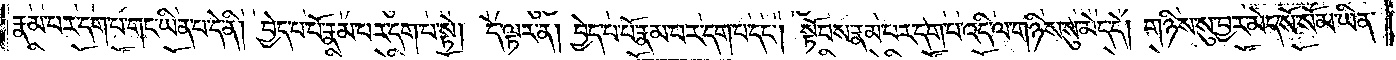རྣམ་པར་དག་པ་གང་ཡིན་པ་དེ་ནི། བྱེད་པ་པོ་རྣམ་པར་དག་པ་སྟེ། དེ་ལྟར་ན། བྱེད་པ་པོ་རྣམ་པར་དག་པ་དང༌། སྟོབས་རྣམ་པར་དག་པ་འདི་ལ་གཉིས་སུ་མེད་དེ། གཉིས་སུ་བྱར་མེད་སོ་སོ་མ་ཡིན་
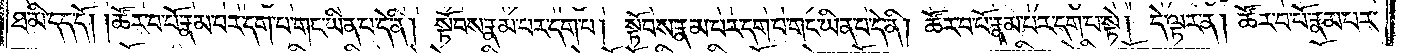ཐ་མི་དད་དོ། །ཚོར་བ་པོ་རྣམ་པར་དག་པ་གང་ཡིན་པ་དེ་ནི། སྟོབས་རྣམ་པར་དག་པ། སྟོབས་རྣམ་པར་དག་པ་གང་ཡིན་པ་དེ་ནི། ཚོར་བ་པོ་རྣམ་པར་དག་པ་སྟེ། དེ་ལྟར་ན། ཚོར་བ་པོ་རྣམ་པར་
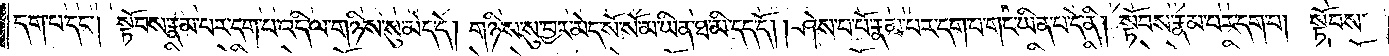དག་པ་དང༌། སྟོབས་རྣམ་པར་དག་པ་འདི་ལ་གཉིས་སུ་མེད་དེ། གཉིས་སུ་བྱར་མེད་སོ་སོ་མ་ཡིན་ཐ་མི་དད་དོ། །ཤེས་པ་པོ་རྣམ་པར་དག་པ་གང་ཡིན་པ་དེ་ནི། སྟོབས་རྣམ་པར་དག་པ། སྟོབས་
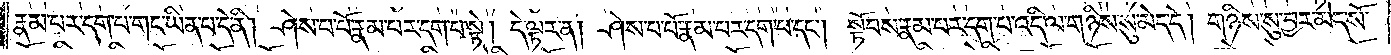རྣམ་པར་དག་པ་གང་ཡིན་པ་དེ་ནི། ཤེས་པ་པོ་རྣམ་པར་དག་པ་སྟེ། དེ་ལྟར་ན། ཤེས་པ་པོ་རྣམ་པར་དག་པ་དང༌། སྟོབས་རྣམ་པར་དག་པ་འདི་ལ་གཉིས་སུ་མེད་དེ། གཉིས་སུ་བྱར་མེད་སོ་
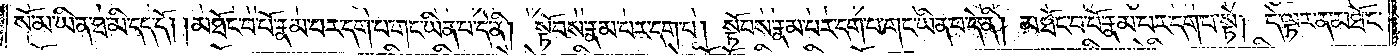སོ་མ་ཡིན་ཐ་མི་དད་དོ། །མཐོང་བ་པོ་རྣམ་པར་དག་པ་གང་ཡིན་པ་དེ་ནི། སྟོབས་རྣམ་པར་དག་པ། སྟོབས་རྣམ་པར་དག་པ་གང་ཡིན་པ་དེ་ནི། མཐོང་བ་པོ་རྣམ་པར་དག་པ་སྟེ། དེ་ལྟར་ན། མཐོང་
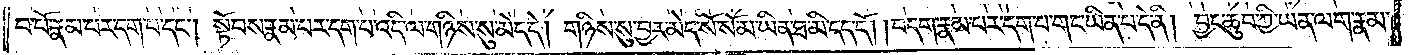བ་པོ་རྣམ་པར་དག་པ་དང༌། སྟོབས་རྣམ་པར་དག་པ་འདི་ལ་གཉིས་སུ་མེད་དེ། གཉིས་སུ་བྱར་མེད་སོ་སོ་མ་ཡིན་ཐ་མི་དད་དོ། །བདག་རྣམ་པར་དག་པ་གང་ཡིན་པ་དེ་ནི། བྱང་ཆུབ་ཀྱི་ཡན་ལག་རྣམ་
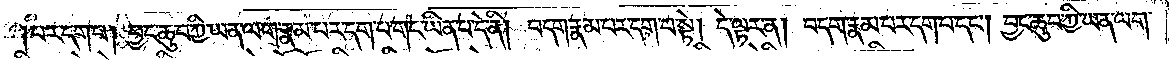པར་དག་པ། བྱང་ཆུབ་ཀྱི་ཡན་ལག་རྣམ་པར་དག་པ་གང་ཡིན་པ་དེ་ནི། བདག་རྣམ་པར་དག་པ་སྟེ། དེ་ལྟར་ན། བདག་རྣམ་པར་དག་པ་དང༌། བྱང་ཆུབ་ཀྱི་ཡན་ལག་
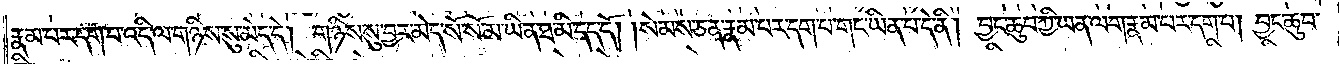རྣམ་པར་དག་པ་འདི་ལ་གཉིས་སུ་མེད་དེ། གཉིས་སུ་བྱར་མེད་སོ་སོ་མ་ཡིན་ཐ་མི་དད་དོ། །སེམས་ཅན་རྣམ་པར་དག་པ་གང་ཡིན་པ་དེ་ནི། བྱང་ཆུབ་ཀྱི་ཡན་ལག་རྣམ་པར་དག་པ། བྱང་ཆུབ་
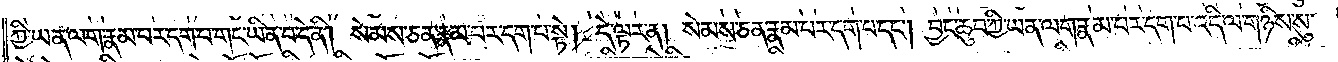ཀྱི་ཡན་ལག་རྣམ་པར་དག་པ་གང་ཡིན་པ་དེ་ནི། སེམས་ཅན་རྣམ་པར་དག་པ་སྟེ། དེ་ལྟར་ན། སེམས་ཅན་རྣམ་པར་དག་པ་དང༌། བྱང་ཆུབ་ཀྱི་ཡན་ལག་རྣམ་པར་དག་པ་འདི་ལ་གཉིས་སུ་
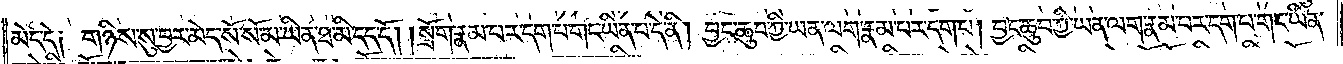མེད་དེ། གཉིས་སུ་བྱར་མེད་སོ་སོ་མ་ཡིན་ཐ་མི་དད་དོ། །སྲོག་རྣམ་པར་དག་པ་གང་ཡིན་པ་དེ་ནི། བྱང་ཆུབ་ཀྱི་ཡན་ལག་རྣམ་པར་དག་པ། བྱང་ཆུབ་ཀྱི་ཡན་ལག་རྣམ་པར་དག་པ་གང་ཡིན་
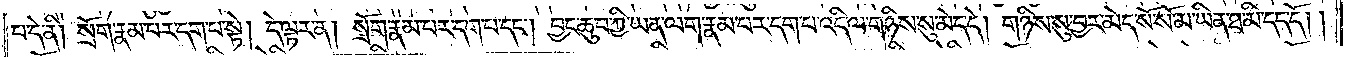པ་དེ་ནི། སྲོག་རྣམ་པར་དག་པ་སྟེ། དེ་ལྟར་ན། སྲོག་རྣམ་པར་དག་པ་དང༌། བྱང་ཆུབ་ཀྱི་ཡན་ལག་རྣམ་པར་དག་པ་འདི་ལ་གཉིས་སུ་མེད་དེ། གཉིས་སུ་བྱར་མེད་སོ་སོ་མ་ཡིན་ཐ་མི་དད་དོ། །
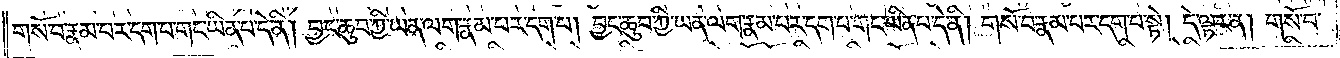གསོ་བ་རྣམ་པར་དག་པ་གང་ཡིན་པ་དེ་ནི། བྱང་ཆུབ་ཀྱི་ཡན་ལག་རྣམ་པར་དག་པ། བྱང་ཆུབ་ཀྱི་ཡན་ལག་རྣམ་པར་དག་པ་གང་ཡིན་པ་དེ་ནི། གསོ་བ་རྣམ་པར་དག་པ་སྟེ། དེ་ལྟར་ན། གསོ་བ་
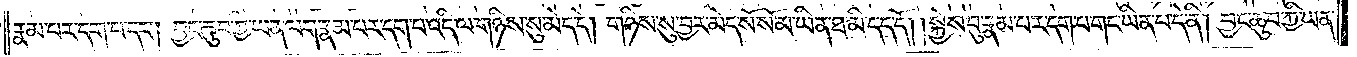རྣམ་པར་དག་པ་དང༌། བྱང་ཆུབ་ཀྱི་ཡན་ལག་རྣམ་པར་དག་པ་འདི་ལ་གཉིས་སུ་མེད་དེ། གཉིས་སུ་བྱར་མེད་སོ་སོ་མ་ཡིན་ཐ་མི་དད་དོ། །སྐྱེས་བུ་རྣམ་པར་དག་པ་གང་ཡིན་པ་དེ་ནི། བྱང་ཆུབ་ཀྱི་ཡན་
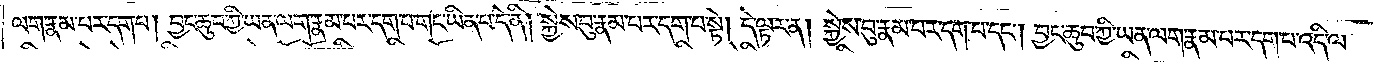ལག་རྣམ་པར་དག་པ། བྱང་ཆུབ་ཀྱི་ཡན་ལག་རྣམ་པར་དག་པ་གང་ཡིན་པ་དེ་ནི། སྐྱེས་བུ་རྣམ་པར་དག་པ་སྟེ། དེ་ལྟར་ན། སྐྱེས་བུ་རྣམ་པར་དག་པ་དང༌། བྱང་ཆུབ་ཀྱི་ཡན་ལག་རྣམ་པར་དག་པ་འདི་ལ་
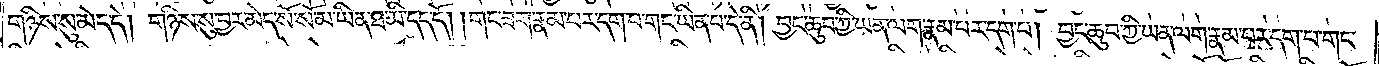གཉིས་སུ་མེད་དེ། གཉིས་སུ་བྱར་མེད་སོ་སོ་མ་ཡིན་ཐ་མི་དད་དོ། །གང་ཟག་རྣམ་པར་དག་པ་གང་ཡིན་པ་དེ་ནི། བྱང་ཆུབ་ཀྱི་ཡན་ལག་རྣམ་པར་དག་པ། བྱང་ཆུབ་ཀྱི་ཡན་ལག་རྣམ་པར་དག་པ་གང་
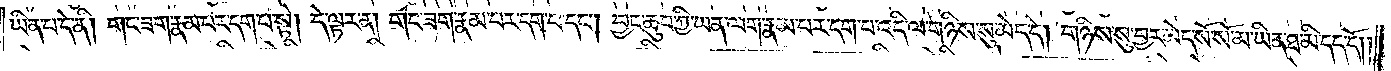ཡིན་པ་དེ་ནི། གང་ཟག་རྣམ་པར་དག་པ་སྟེ། དེ་ལྟར་ན། གང་ཟག་རྣམ་པར་དག་པ་དང༌། བྱང་ཆུབ་ཀྱི་ཡན་ལག་རྣམ་པར་དག་པ་འདི་ལ་གཉིས་སུ་མེད་དེ། གཉིས་སུ་བྱར་མེད་སོ་སོ་མ་ཡིན་ཐ་མི་དད་དོ། །
